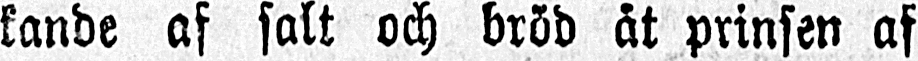kande af salt och bröd åt prinsen af
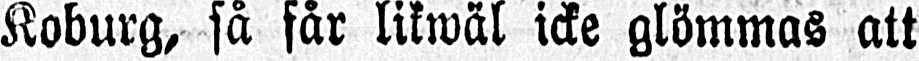Koburg, så får likwäl icke glömmas att
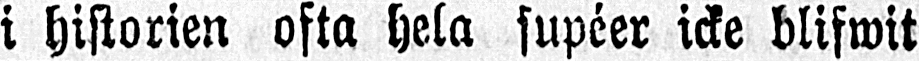i historien ofta hela supéer icke blifwit
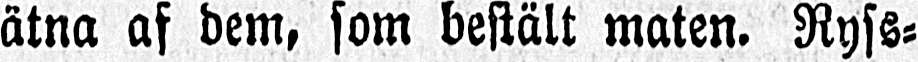ätna af dem, som bestält maten. Ryss-
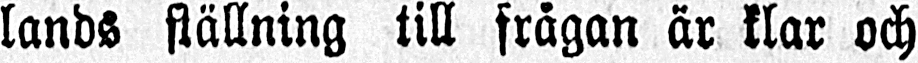lands ställning till frågan är klar och
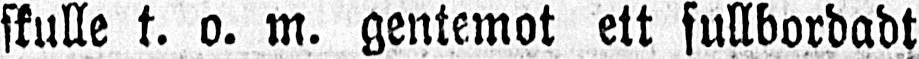skulle t. o. m. gentemot ett fullbordadt
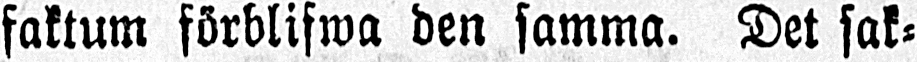faktum förblifwa den samma. Det sak-
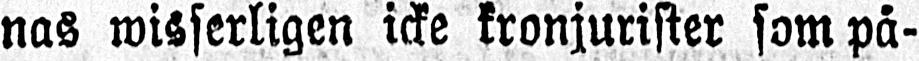nas wisserligen icke kronjurister som på-
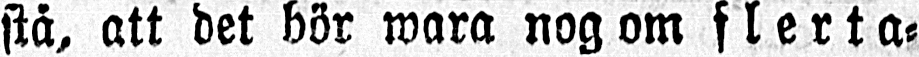stå, att det bör wara nog om flerta-
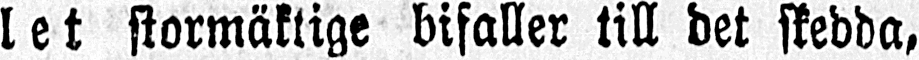let stormäktige bifaller till det skedda,
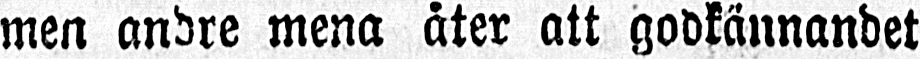men andre mena åter att godkännandet
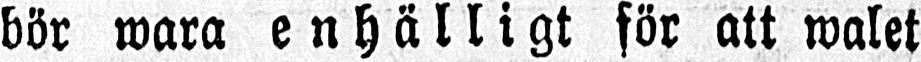bör wara enhälli gt för att walet
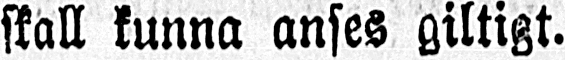skall kunna anses giltigt.
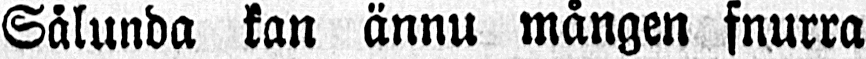Sålunda kan ännu mången fnurra
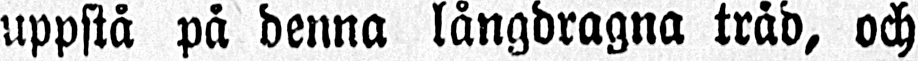uppstå på denna långdragna tråd, och
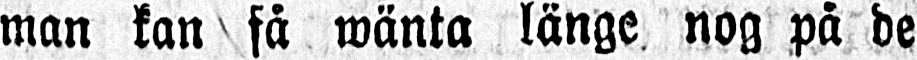man kan få wänta länge nog på de
